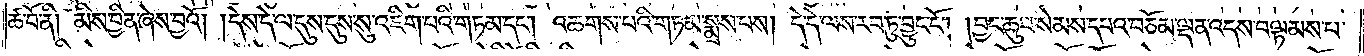ཚ་བོ་ནི། མིས་བྱིན་ཞེས་བྱའོ། །དེས་དེ་ལ་དུས་དུས་སུ་འཇིག་པའི་གཏམ་དང༌། འཆགས་པའི་གཏམ་སྨྲས་པས། དེ་དེ་ལས་རབ་ཏུ་བྱུང་ངོ༌། །བྱང་ཆུབ་སེམས་དཔའ་བཅོམ་ལྡན་འདས་བལྟམས་པ་
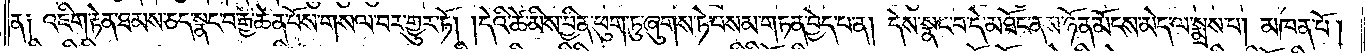ན། འཇིག་རྟེན་ཐམས་ཅད་སྣང་བ་རྒྱ་ཆེན་པོས་གསལ་བར་གྱུར་ཏོ། །དེའི་ཚེ་མིས་བྱིན་ཕུག་ཏུ་ཞུགས་ཏེ་བསམ་གཏན་བྱེད་པ་ན། དེས་སྣང་བ་དེ་མཐོང་ནས་ཉོན་མོངས་མེད་ལ་སྨྲས་པ། མཁན་པོ།
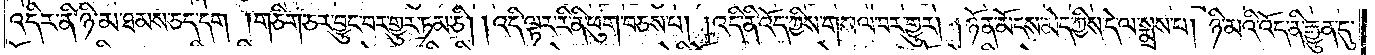འདིར་ནི་ཉི་མ་ཐམས་ཅད་དག །གཅིག་ཅར་བྱུང་བར་གྱུར་ཏམ་ཅི། །འདི་ལྟར་རི་ནི་ཕུག་བཅས་པ། །འདི་ནི་འོད་ཀྱིས་གསལ་བར་གྱུར། །ཉོན་མོངས་མེད་ཀྱིས་དེ་ལ་སྨྲས་པ། ཉི་མའི་འོད་ནི་རྒྱུན་དུ་
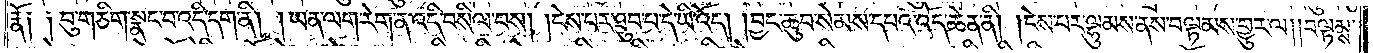རྣོ། །བུ་གཅིག་སྣང་བ་འདི་དག་ནི། །ཡན་ལག་རེག་ན་འདི་བསིལ་བས། །ངེས་པར་ཐུབ་པ་དེ་ཡི་འོད། །བྱང་ཆུབ་སེམས་དཔའ་འོད་ཆེན་ནི། །ངེས་པར་ལྷུམས་ནས་བལྟམས་གྱུར་ལ། །བལྟམས་
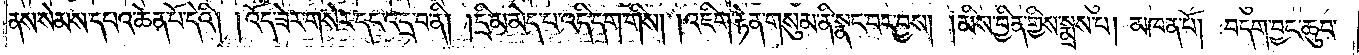ནས་སེམས་དཔའ་ཆེན་པོ་དེའི། །འོད་ཟེར་གསེར་དང་འདྲ་བ་ནི། །དྲི་མ་མེད་པ་འདི་དག་གིས། །འཇིག་རྟེན་གསུམ་ནི་སྣང་བར་བྱས། །མིས་བྱིན་གྱིས་སྨྲས་པ། མཁན་པོ། བདག་བྱང་ཆུབ་
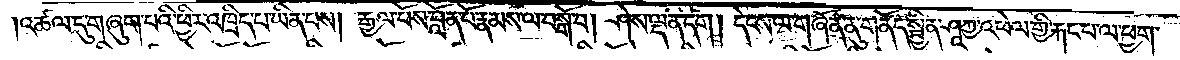འཚལ་དུ་གཞུག་པའི་ཕྱིར་འཁྲིད་པ་ཡིན་པས། རྒྱལ་པོས་བློན་པོ་རྣམས་ལ་བསྒོ་བ། ཤེས་ལྡན་དག །དེངས་ལ་གཞོན་ནུ་གནོད་སྦྱིན་ཤཱཀྱ་འཕེལ་གྱི་རྐང་པ་ལ་ཕྱག་
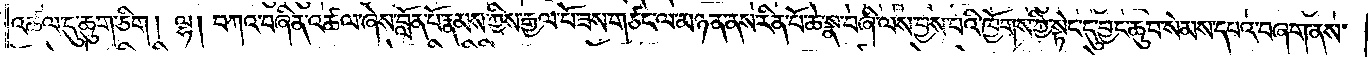འཚལ་དུ་ཆུག་ཅིག །ལྷ། བཀའ་བཞིན་འཚལ་ཞེས་བློན་པོ་རྣམས་ཀྱིས་རྒྱལ་པོ་ཟས་གཙང་ལ་མཉན་ནས་རིན་པོ་ཆེ་སྣ་བཞི་ལས་བྱས་པའི་ཁྱོགས་ཀྱི་སྟེང་དུ་བྱང་ཆུབ་སེམས་དཔའ་བཞག་ནས་
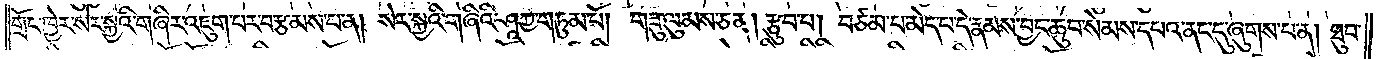གྲོང་ཁྱེར་སེར་སྐྱའི་གཞིར་འཇུག་པར་བརྩམས་པ་ན། སེར་སྐྱའི་གཞིའི་ཤཱཀྱ་གཏུམ་པོ། གཟུ་ལུམས་ཅན། རྩུབ་པ། བཙམ་པ་མེད་པ་དེ་རྣམས་བྱང་ཆུབ་སེམས་དཔའ་ནང་དུ་ཞུགས་པ་ན། ཐུབ་
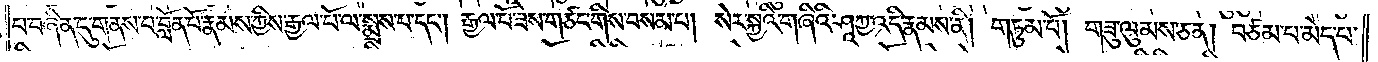པ་བཞིན་དུ་གནས་པ་བློན་པོ་རྣམས་ཀྱིས་རྒྱལ་པོ་ལ་སྨྲས་པ་དང༌། རྒྱལ་པོ་ཟས་གཙང་གིས་བསམ་པ། སེར་སྐྱའི་གཞིའི་ཤཱཀྱ་འདི་རྣམས་ནི། གཏུམ་པོ། གཟུ་ལུམས་ཅན། བཙམ་པ་མེད་པ་
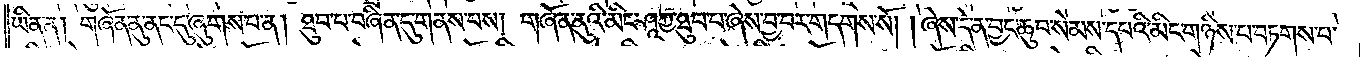ཡིན་ན། གཞོན་ནུ་ནང་དུ་ཞུགས་པ་ན། ཐུབ་པ་བཞིན་དུ་གནས་པས། གཞོན་ནུའི་མིང་ཤཱཀྱ་ཐུབ་པ་ཞེས་བྱ་བར་གདགས་སོ། །ཞེས་དེ་ན་བྱང་ཆུབ་སེམས་དཔའི་མིང་གཉིས་པ་བཏགས་པ་
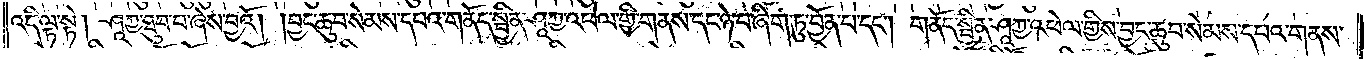འདི་ལྟ་སྟེ། ཤཱཀྱ་ཐུབ་པ་ཞེས་བྱའོ། །བྱང་ཆུབ་སེམས་དཔའ་གནོད་སྦྱིན་ཤཱཀྱ་འཕེལ་གྱི་གནས་དང་ཉེ་བ་ཞིག་ཏུ་བྱོན་པ་དང༌། གནོད་སྦྱིན་ཤཱཀྱ་འཕེལ་གྱིས་བྱང་ཆུབ་སེམས་དཔའ་གནས་
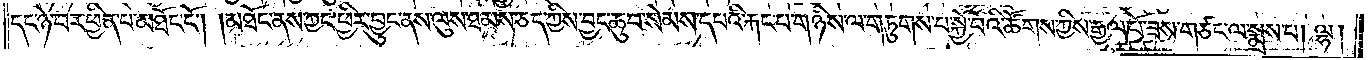དང་ཉེ་བར་ཕྱིན་པ་མཐོང་ངོ༌། །མཐོང་ནས་ཀྱང་ཕྱིར་བྱུང་ནས་ལུས་ཐམས་ཅད་ཀྱིས་བྱང་ཆུབ་སེམས་དཔའི་རྐང་པ་གཉིས་ལ་གཏུགས་པ་སྐྱེ་བོའི་ཚོགས་ཀྱིས་རྒྱལ་པོ་ཟས་གཙང་ལ་སྨྲས་པ། ལྷ།
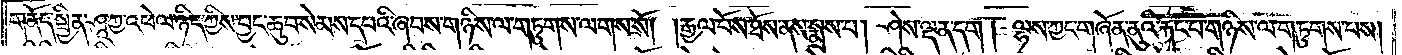གནོད་སྦྱིན་ཤཱཀྱ་འཕེལ་ཉིད་ཀྱིས་བྱང་ཆུབ་སེམས་དཔའི་ཞབས་གཉིས་ལ་གཏུགས་ལགས་སོ། །རྒྱལ་པོས་ཐོས་ནས་སྨྲས་པ། ཤེས་ལྡན་དག །ལྷས་ཀྱང་གཞོན་ནུའི་རྐང་པ་གཉིས་ལ་གཏུགས་པས།
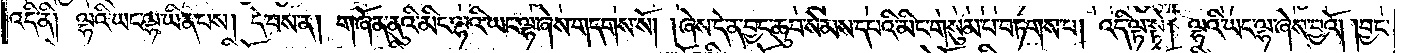འདི་ནི། ལྷའི་ཡང་ལྷ་ཡིན་པས། དེ་བས་ན། གཞོན་ནུའི་མིང་ལྷའི་ཡང་ལྷ་ཞེས་གདགས་སོ། །ཞེས་དེ་ན་བྱང་ཆུབ་སེམས་དཔའི་མིང་གསུམ་པ་བཏགས་པ། འདི་ལྟ་སྟེ། ལྷའི་ཡང་ལྷ་ཞེས་བྱའོ། །བྱང་
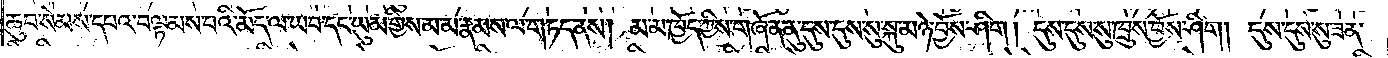ཆུབ་སེམས་དཔའ་བལྟམས་པའི་མོད་ལ་ཡབ་དང་ཡུམ་གྱིས་མ་མ་རྣམས་ལ་གཏད་ནས། མ་མ་ཁྱོད་ཀྱིས་གཞོན་ནུ་དུས་དུས་སུ་སྐུ་མཉེ་བྱོས་ཤིག །དུས་དུས་སུ་ཁྲུས་བྱོས་ཤིག །དུས་དུས་སུ་ཟན་
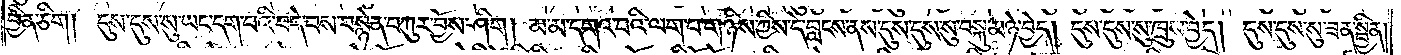བྱིན་ཅིག །དུས་དུས་སུ་ཡང་དག་པའི་བདེ་བས་བསྙེན་བཀུར་བྱོས་ཤིག །མ་མ་དགའ་བའི་ལག་པ་གཉིས་ཀྱིས་དེ་བླངས་ནས་དུས་དུས་སུ་བསྐུ་མཉེ་བྱེད། དུས་དུས་སུ་ཁྲུས་བྱེད། དུས་དུས་སུ་ཟན་སྦྱིན།
